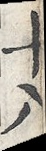十八
